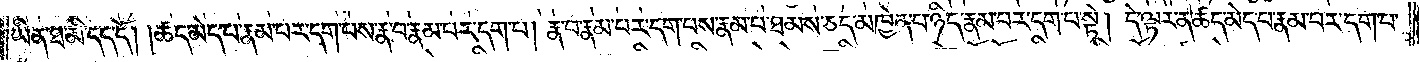ཡིན་ཐ་མི་དད་དོ། །ཚད་མེད་པ་རྣམ་པར་དག་པས་རྣ་བ་རྣམ་པར་དག་པ། རྣ་བ་རྣམ་པར་དག་པས་རྣམ་པ་ཐམས་ཅད་མཁྱེན་པ་ཉིད་རྣམ་པར་དག་པ་སྟེ། དེ་ལྟར་ན་ཚད་མེད་པ་རྣམ་པར་དག་པ་
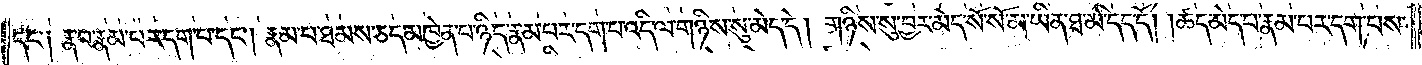དང་༑ རྣ་བ་རྣམ་པར་དག་པ་དང༌། རྣམ་པ་ཐམས་ཅད་མཁྱེན་པ་ཉིད་རྣམ་པར་དག་པ་འདི་ལ་གཉིས་སུ་མེད་དེ། གཉིས་སུ་བྱར་མེད་སོ་སོ་མ་ཡིན་ཐ་མི་དད་དོ། །ཚད་མེད་པ་རྣམ་པར་དག་པས་
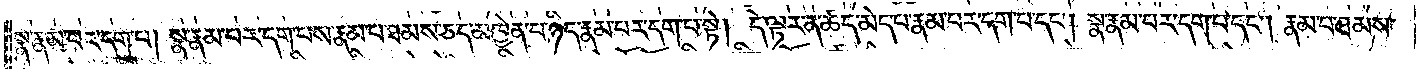སྣ་རྣམ་པར་དག་པ། སྣ་རྣམ་པར་དག་པས་རྣམ་པ་ཐམས་ཅད་མཁྱེན་པ་ཉིད་རྣམ་པར་དག་པ་སྟེ། དེ་ལྟར་ན་ཚད་མེད་པ་རྣམ་པར་དག་པ་དང༌། སྣ་རྣམ་པར་དག་པ་དང༌། རྣམ་པ་ཐམས་
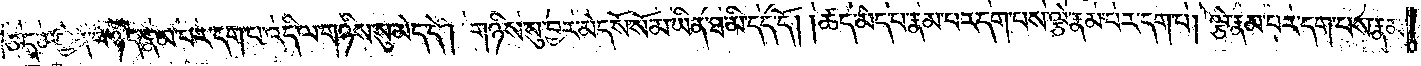ཅད་མཁྱེན་པ་ཉིད་རྣམ་པར་དག་པ་འདི་ལ་གཉིས་སུ་མེད་དེ། གཉིས་སུ་བྱར་མེད་སོ་སོ་མ་ཡིན་ཐ་མི་དད་དོ། །ཚད་མེད་པ་རྣམ་པར་དག་པས་ལྕེ་རྣམ་པར་དག་པ། ལྕེ་རྣམ་པར་དག་པས་རྣམ་
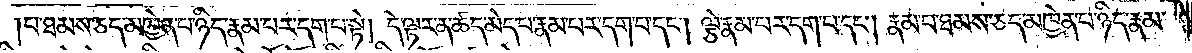པ་ཐམས་ཅད་མཁྱེན་པ་ཉིད་རྣམ་པར་དག་པ་སྟེ། དེ་ལྟར་ན་ཚད་མེད་པ་རྣམ་པར་དག་པ་དང༌། ལྕེ་རྣམ་པར་དག་པ་དང༌། རྣམ་པ་ཐམས་ཅད་མཁྱེན་པ་ཉིད་རྣམ་
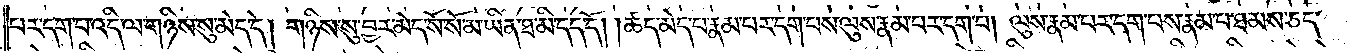པར་དག་པ་འདི་ལ་གཉིས་སུ་མེད་དེ། གཉིས་སུ་བྱར་མེད་སོ་སོ་མ་ཡིན་ཐ་མི་དད་དོ། །ཚད་མེད་པ་རྣམ་པར་དག་པས་ལུས་རྣམ་པར་དག་པ། ལུས་རྣམ་པར་དག་པས་རྣམ་པ་ཐམས་ཅད་
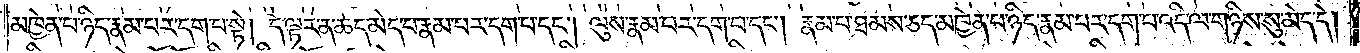མཁྱེན་པ་ཉིད་རྣམ་པར་དག་པ་སྟེ། དེ་ལྟར་ན་ཚད་མེད་པ་རྣམ་པར་དག་པ་དང༌། ལུས་རྣམ་པར་དག་པ་དང༌། རྣམ་པ་ཐམས་ཅད་མཁྱེན་པ་ཉིད་རྣམ་པར་དག་པ་འདི་ལ་གཉིས་སུ་མེད་དེ།
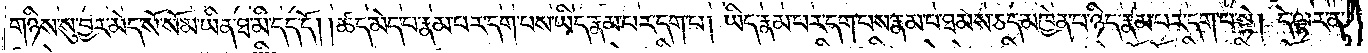གཉིས་སུ་བྱར་མེད་སོ་སོ་མ་ཡིན་ཐ་མི་དད་དོ། །ཚད་མེད་པ་རྣམ་པར་དག་པས་ཡིད་རྣམ་པར་དག་པ། ཡིད་རྣམ་པར་དག་པས་རྣམ་པ་ཐམས་ཅད་མཁྱེན་པ་ཉིད་རྣམ་པར་དག་པ་སྟེ། དེ་ལྟར་ན་
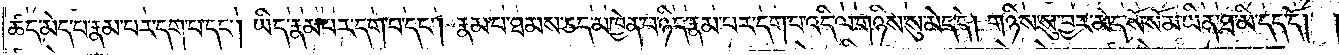ཚད་མེད་པ་རྣམ་པར་དག་པ་དང༌། ཡིད་རྣམ་པར་དག་པ་དང༌། རྣམ་པ་ཐམས་ཅད་མཁྱེན་པ་ཉིད་རྣམ་པར་དག་པ་འདི་ལ་གཉིས་སུ་མེད་དེ། གཉིས་སུ་བྱར་མེད་སོ་སོ་མ་ཡིན་ཐ་མི་དད་དོ། །
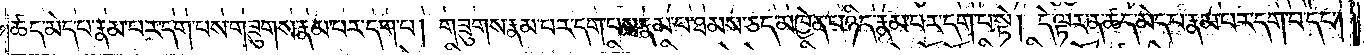ཚད་མེད་པ་རྣམ་པར་དག་པས་གཟུགས་རྣམ་པར་དག་པ། གཟུགས་རྣམ་པར་དག་པས་རྣམ་པ་ཐམས་ཅད་མཁྱེན་པ་ཉིད་རྣམ་པར་དག་པ་སྟེ། དེ་ལྟར་ན་ཚད་མེད་པ་རྣམ་པར་དག་པ་དང༌།
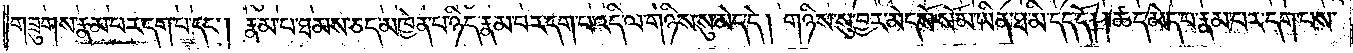གཟུགས་རྣམ་པར་དག་པ་དང༌། རྣམ་པ་ཐམས་ཅད་མཁྱེན་པ་ཉིད་རྣམ་པར་དག་པ་འདི་ལ་གཉིས་སུ་མེད་དེ། གཉིས་སུ་བྱར་མེད་སོ་སོ་མ་ཡིན་ཐ་མི་དད་དོ། །ཚད་མེད་པ་རྣམ་པར་དག་པས་
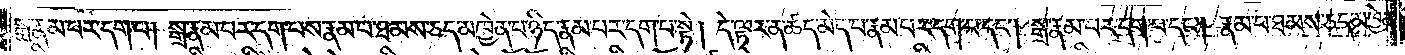སྒྲ་རྣམ་པར་དག་པ། སྒྲ་རྣམ་པར་དག་པས་རྣམ་པ་ཐམས་ཅད་མཁྱེན་པ་ཉིད་རྣམ་པར་དག་པ་སྟེ། དེ་ལྟར་ན་ཚད་མེད་པ་རྣམ་པར་དག་པ་དང༌། སྒྲ་རྣམ་པར་དག་པ་དང༌། རྣམ་པ་ཐམས་ཅད་མཁྱེན་
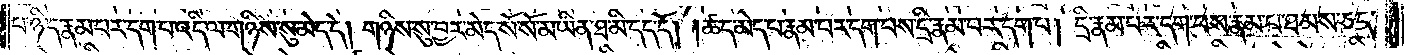པ་ཉིད་རྣམ་པར་དག་པ་འདི་ལ་གཉིས་སུ་མེད་དེ། གཉིས་སུ་བྱར་མེད་སོ་སོ་མ་ཡིན་ཐ་མི་དད་དོ། །ཚད་མེད་པ་རྣམ་པར་དག་པས་དྲི་རྣམ་པར་དག་པ། དྲི་རྣམ་པར་དག་པས་རྣམ་པ་ཐམས་ཅད་
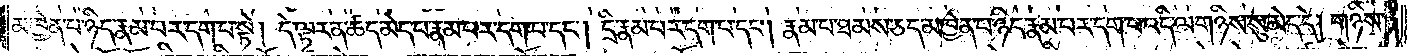མཁྱེན་པ་ཉིད་རྣམ་པར་དག་པ་སྟེ། དེ་ལྟར་ན་ཚད་མེད་པ་རྣམ་པར་དག་པ་དང༌། དྲི་རྣམ་པར་དག་པ་དང༌། རྣམ་པ་ཐམས་ཅད་མཁྱེན་པ་ཉིད་རྣམ་པར་དག་པ་འདི་ལ་གཉིས་སུ་མེད་དེ། གཉིས་
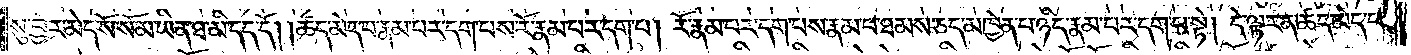སུ་བྱར་མེད་སོ་སོ་མ་ཡིན་ཐ་མི་དད་དོ། །ཚད་མེད་པ་རྣམ་པར་དག་པས་རོ་རྣམ་པར་དག་པ། རོ་རྣམ་པར་དག་པས་རྣམ་པ་ཐམས་ཅད་མཁྱེན་པ་ཉིད་རྣམ་པར་དག་པ་སྟེ། དེ་ལྟར་ན་ཚད་མེད་པ་
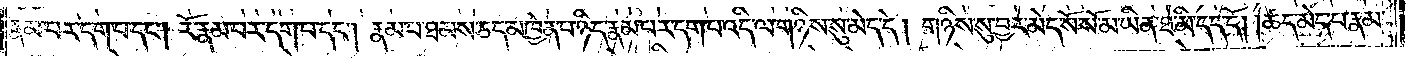རྣམ་པར་དག་པ་དང༌། རོ་རྣམ་པར་དག་པ་དང༌། རྣམ་པ་ཐམས་ཅད་མཁྱེན་པ་ཉིད་རྣམ་པར་དག་པ་འདི་ལ་གཉིས་སུ་མེད་དེ། གཉིས་སུ་བྱར་མེད་སོ་སོ་མ་ཡིན་ཐ་མི་དད་དོ། །ཚད་མེད་པ་རྣམ་
